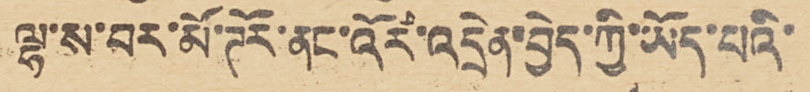ལྷ་ས་བར་མོ་ཊོར་ནང་འོར་འདྲེན་བྱེད་ཀྱི་ཡོད་པའི་
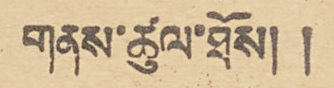གནས་ཚུལ་ཐོས། །
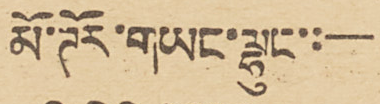མོ་ཊོར་གཡང་ལྷུང་:—
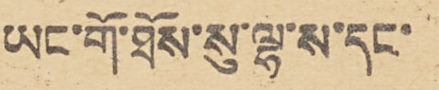ཡང་གོ་ཐོས་སུ་ལྷ་ས་དང་
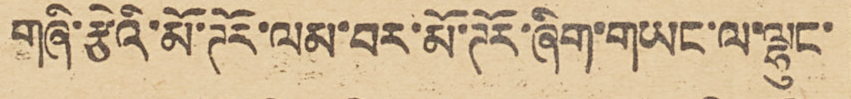གཞི་རྩེའི་མོ་ཊོར་ལམ་བར་མོ་ཊོར་ཞིག་གཡང་ལ་ལྷུང་
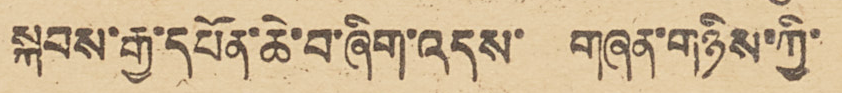སྐབས་རྒྱ་དཔོན་ཆེ་བ་ཞིག་འདས་ གཞན་གཉིས་ཀྱི་
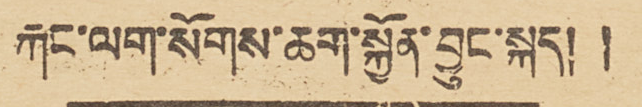རྐང་ལག་སོགས་ཆག་སྐྱོན་བྱུང་སྐད། །
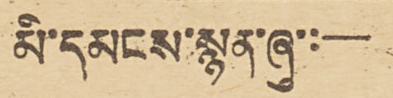མི་དམངས་སྙན་ཞུ་:—
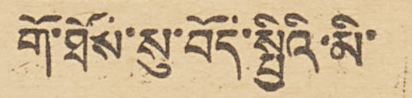གོ་ཐོས་སུ་བོད་སྤྱིའི་མི་
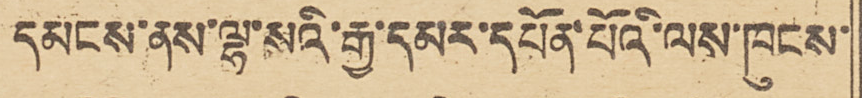དམངས་ནས་ལྷ་སའི་རྒྱ་དམར་དཔོན་པོའི་ལས་ཁུངས་
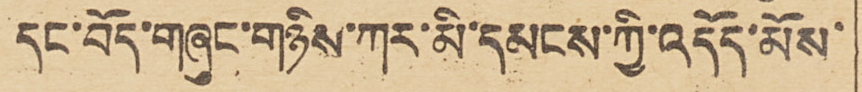དང་བོད་གཞུང་གཉིས་ཀར་མི་དམངས་ཀྱི་འདོད་མོས་
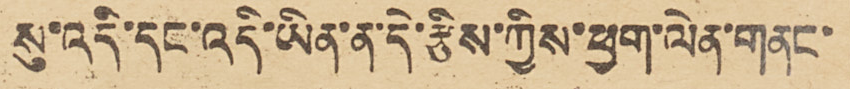སུ་འདི་དང་འདི་ཡིན་ན་དེ་རྩིས་ཀྱིས་ཕྱག་ལེན་གནང་
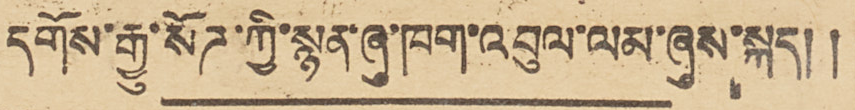དགོས་རྒྱུ་སོཌ་ཀྱི་སྙན་ཞུ་ཁག་འབུལ་ལམ་ཞུས་སྐད། །
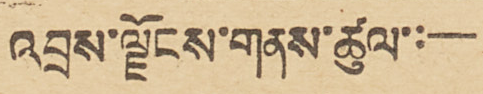འབྲས་ལྗོངས་གནས་ཚུལ་:—
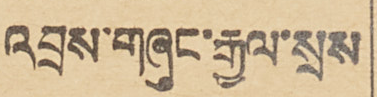འབྲས་གཞུང་རྒྱལ་སྲས
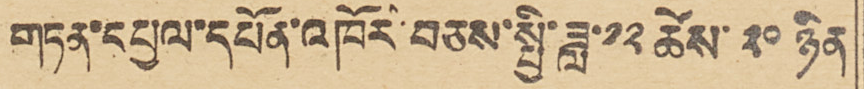གཏན་དཔྱལ་དཔོན་འཁོར་བཅས་སྤྱི་ཟླ་༡༢ ཚེས་ ༢༠ ཉིན
